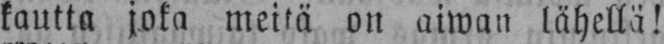kautta joka meitä on aiwan lähellä!
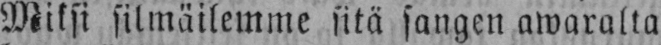Miksi silmäilemme sitä sangen awaralta
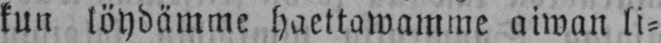kun löydämme haettawamme aiwan li-
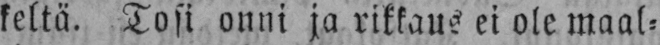keltä. Tosi onni ja rikkaus ei ole maal-
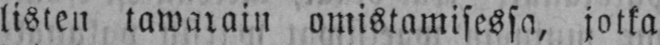listen tawarain omistamisessa, jatka
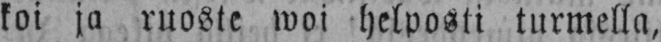koi ja ruoste woi helposti turmella,
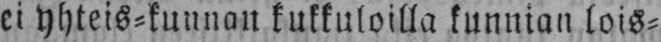ei yhteis-kunnon kukkuloilla kunnian lois-
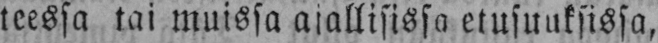teessa tai muissa ajallisissa etusuuksissa,
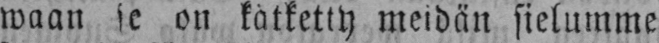waan se on kätketty meidän sielumme
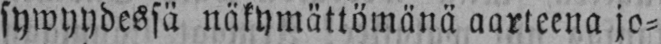sywyydessä näkymättömänä aarteena jo-
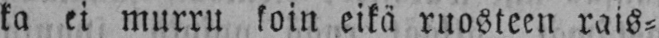ka ei murru koin eikä ruosteen rais-
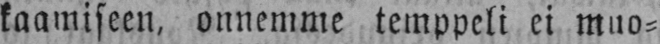kaamiseen, onnemme temppeli ei muo-
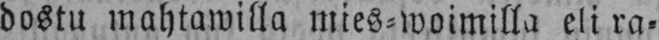dostu mahtawilla mies-woimilla eli ra-
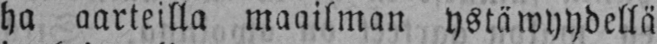ha aarteilla maailman ystäwyydellä
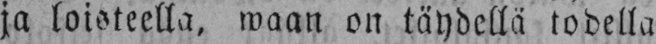ja loisteella, waan on täydellä todella
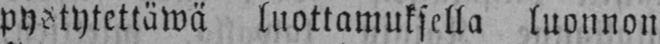pystytettäwä luottamuksella luonnon
